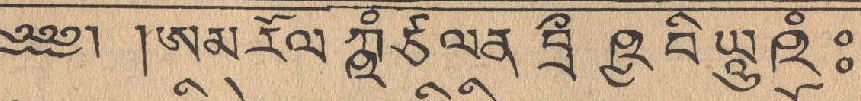༄༅༅། །ཨམ རོལ ཀྵཾ ཙ ལན བྲྀ ཥྱ བི ཡཱུ ཥཾ ཿ
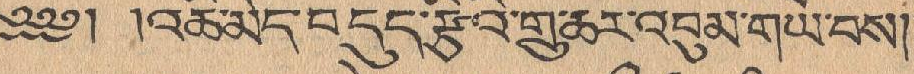༄༅༅། །འཆི་མེད་བདུད་རྩིའི་གྲུ་ཆར་འབུམ་གཡོ་བས།།
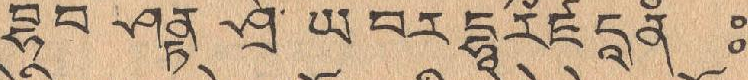བྷབ ཤནྟ ཤྲེ ཡ བར དྷཱ རྀཛ དཱ ནཾ ཿ
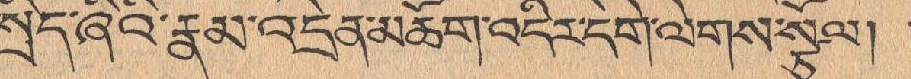སྲིད་ཞིའི་རྣམ་འདྲེན་མཆོག་འདིར་དགེ་ལེགས་སྩོལ། །
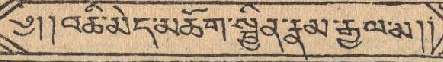༄།།འཆི་མེད་མཆོག་སྦྱིན་རྣམ་རྒྱལ་མ།།
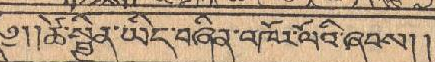༄།།ཚེ་སྦྱིན་ཡིད་བཞིན་འཁོར་ལོའི་ཞབས།།
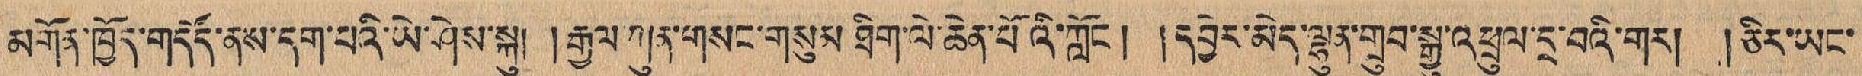མགོན་ཁྱོད་གདོད་ནས་དག་པའི་ཡེ་ཤེས་སྐུ། །རྒྱལ་ཀུན་གསང་གསུམ ཐིག་ལེ་ཆེན་པོའོ་ཀློང། །དབྱེར་མེད་ལྷུན་གྲུབ་སྒྱུ་འཕྲུལ་དྲ་བའི་གར། །ཅིར་ཡང་
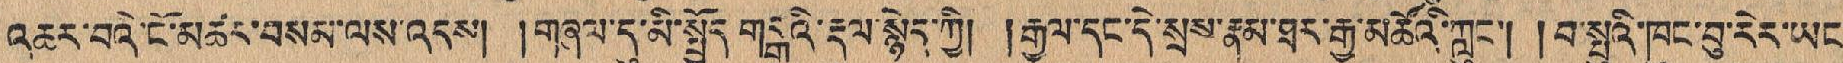འཆར་བའི་ངོ་མཚར་བསམ་ལས་འདས། །གཞལ་དུ་མི་སྤྱོད་གངྒཱའི་རྡུལ་སྙེད་ཀྱི། །རྒྱལ་དང་དེ་སྲས་རྣམ་ཐར་རྒྱ་མཚོའི་ཀླུང་། །བ་སྤུའི་ཁུང་བུ་རེར་ཡང་
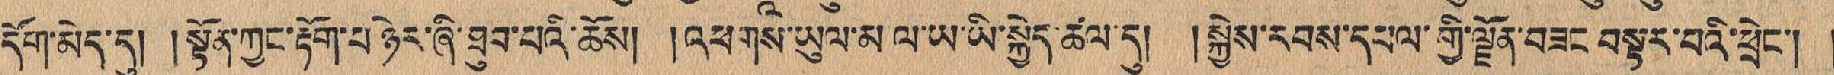དོག་མེད་དུ། །སྟོན་ཀྱང་རྟོག་པ ཉེར་ཞི་ཐུབ་པའི་ཆོས། །འཕགས་ཡུལ་མ ལ་ཡ་ཡི་སྐྱེད་ཚལ་དུ། །སྐྱེས་རབས་དཔལ་གྱི་ལྗོན་བཟང་བསྟར་བའི་ཕྲེང་། །
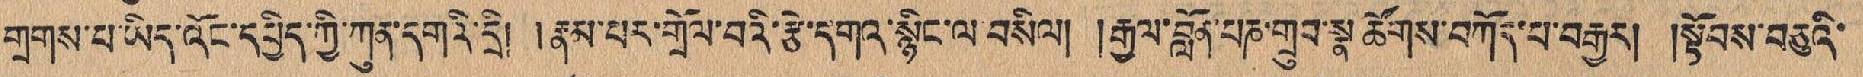གྲགས་པ་ཡིད་འོང་དཔྱིད་ཀྱི་ཀུན་དགའི་དྲི། །རྣམ་པར་གྲོལ་བའི་རྩེ་དགའ་སྙིང་ལ་བསིལ། །རྒྱལ་བློན་པཎ་གྲུབ་སྣ་ཚོགས་བཀོད་པ་བརྒྱར། །སྟོབས་བཅུའི་
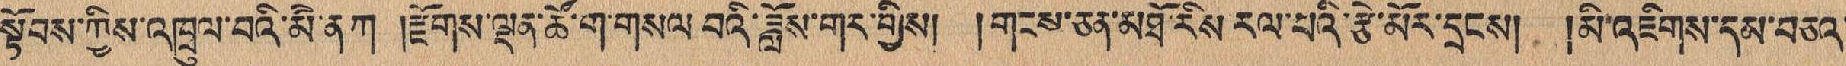སྟོབས་ཀྱིས་འཁྲུལ་བའི་མཻ་ན ཀ །རྫོགས་ལྡན་ཚོ་ག་གསལ་བའི་ཟློས་གར་གྱིས། །གངས་ཅན་མཐོ་རིས རལ་པའི་རྩེ་མོར་དྲངས། །མི་འཇིགས་དམ་བཅའ་
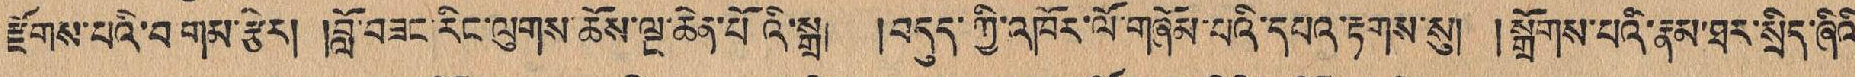རྫོགས་པའི་བ གམ་རྩེར། །བློ་བཟང་རིང་ལུགས་ཆོས་ལྔ་ཆེན་པོའི་སྐྲ། །བདུད་ཀྱི་འཁོར་ལོ་གཞོམ་པའི་དཔའ་རྟགས་སུ། །སྒྲོགས་པའི་རྣམ་ཐར་སྲིད་ཞིའི་
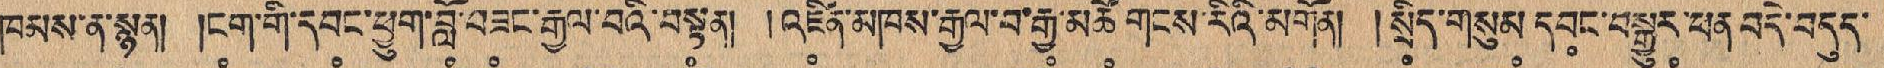ཁམས་ན་སྙན། །ང༷ག་གི་དབ༷ང་ཕྱུག་བློ༷་བཟ༷ང་རྒྱལ་བའི་བསྟ༷ན། །འཛི༷ན་མཁས་རྒྱལ་བ་རྒྱ༷་མཚོ༷ གངས་རིའི་མགོན། །སྲི༷ད་གསུམ༷་དབ༷ང་བསྒྱུར༷་ཕན བདེ་བདུད་
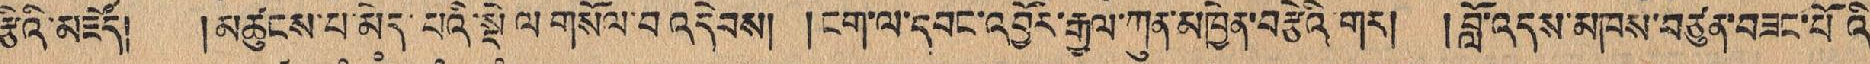རྩིའི་མཛོད། །མཚུང༷ས་པ༷་མེ༷ད་པ༷འི་སྡེ༷ ལ་གསོལ་བ འདེབས། །ངག་ལ་དབང་འབྱོར་རྒྱལ་ཀུན་མཁྱེན་བརྩེའི་གར། །བློ་འདས་མཁས་བཙུན་བཟང་པོའི་
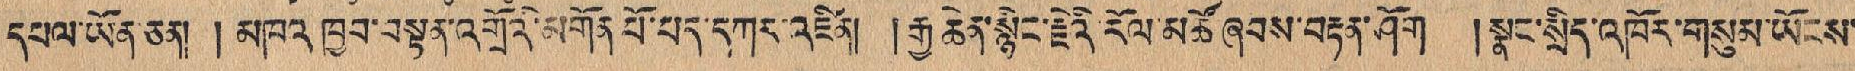དཔལ་ཡོན་ཅན། །མཁའ་ཁྱབ་བསྟན་འགྲོའི་མགོན་པོ་པད་དཀར་འཛིན། །རྒྱ་ཆེན་སྙིང་རྗེའི་རོལ་མཚོ ཞབས་བརྟན་ཤོག །སྣང་སྲིད་འཁོར་གསུམ་ཡོངས་
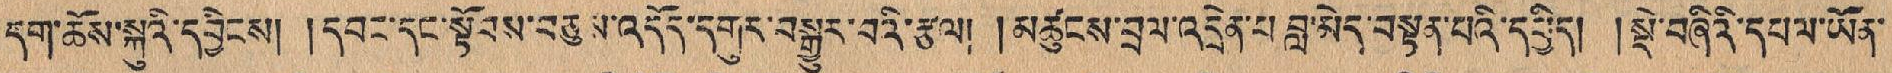དག་ཆོས་སྐུའི་དབྱིངས། །དབང་དང་སྟོབས་བཅུས་འདོད་དགུར་བསྒྱུར་བའི་རྩལ། །མཚུངས་བྲལ་འདྲེན་པ་བླ་མེད་བསྟན་པའི་དཔྱིད། །སྡེ་བཞིའི་དཔལ་ཡོན་
